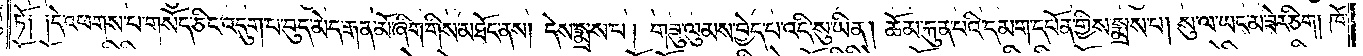ཏོ༑ ༑དེ་འཕགས་པ་གསོད་ཅིང་འདུག་པ་བུད་མེད་རྒན་མོ་ཞིག་གིས་མཐོང་ནས། དེས་སྨྲས་པ། གཟུ་ལུམས་བྱེད་པ་འདི་སུ་ཡིན། ཆོམ་རྐུན་པའི་དམག་དཔོན་གྱིས་སྨྲས་པ། སུ་ལ་ཡང་མ་ཟེར་ཅིག། ཁོ་
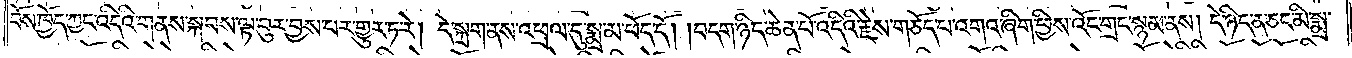བོས་ཁྱོད་ཀྱང་འདིའི་གནས་སྐབས་ལྟ་བུར་བྱས་པར་གྱུར་ཏ་རེ། དེ་སྐྲག་ནས་འཕྲལ་དུ་སྨྲ་མ་ཕོད་དོ། །བདག་ཉིད་ཆེན་པོ་འདིའི་རྗེས་གཅོད་པ་འགའ་ཞིག་ཕྱིས་འོང་གྲང་སྙམ་ནས། དེ་ཉིད་ན་ཅང་མི་སྨྲ་
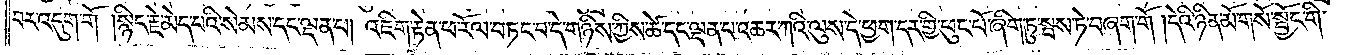བར་འདུག་གོ །སྙིང་རྗེ་མེད་པའི་སེམས་དང་ལྡན་པ། འཇིག་རྟེན་ཕ་རོལ་བཏང་བ་དེ་གཉིས་ཀྱིས་ཚེ་དང་ལྡན་པ་འཆར་ཀའི་ལུས་དེ་ཕྱག་དར་གྱི་ཕུང་པོ་ཞིག་ཏུ་སྦས་ཏེ་བཞག་གོ །དེའི་ཉིན་མོ་གསོ་སྦྱོང་གི་
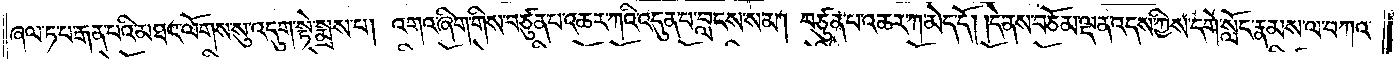ཞལ་ཏ་བ་རྒན་པའི་མཐའ་ལོགས་སུ་འདུག་སྟེ་སྨྲས་པ། འགའ་ཞིག་གིས་བཙུན་པ་འཆར་ཀའི་འདུན་པ་བླངས་སམ། བཙུན་པ་འཆར་ཀ་མེད་དོ། །དེ་ནས་བཅོམ་ལྡན་འདས་ཀྱིས་དགེ་སློང་རྣམས་ལ་བཀའ་
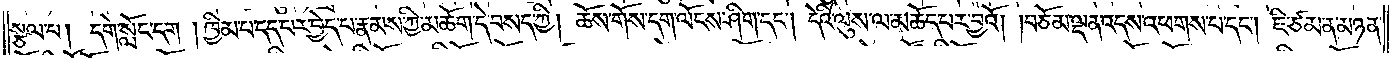སྩལ་པ། དགེ་སློང་དག །ཁྱིམ་པ་དད་པར་བྱེད་པ་རྣམས་ཀྱི་མཆོག་དེ་བསད་ཀྱི། ཆོས་གོས་དག་ལོངས་ཤིག་དང༌། དེའི་ལུས་ལ་མཆོད་པར་བྱའོ། །བཅོམ་ལྡན་འདས་འཕགས་པ་དང༌། ཇི་ཙམ་ན་མཉན་
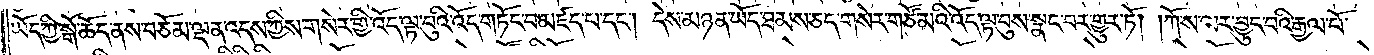ཡོད་ཀྱི་སྒོ་ཆོད་ནས་བཅོམ་ལྡན་འདས་ཀྱིས་གསེར་གྱི་འོད་ལྟ་བུའི་འོད་གཏོང་བ་མཛད་པ་དང༌། དེས་མཉན་ཡོད་ཐམས་ཅད་གསེར་གཙོ་མའི་འོད་ལྟ་བུས་སྣང་བར་གྱུར་ཏོ། །ཀོ་ས་ལར་བྱུང་བའི་རྒྱལ་པོ་
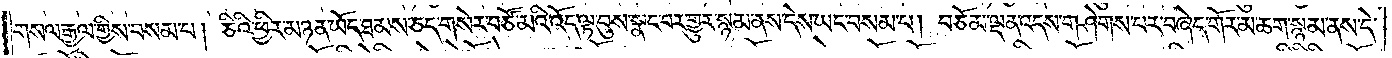གསལ་རྒྱལ་གྱིས་བསམ་པ། ཅིའི་ཕྱིར་མཉན་ཡོད་ཐམས་ཅད་གསེར་བཙོ་མའི་འོད་ལྟ་བུས་སྣང་བར་གྱུར་སྙམ་ནས་དེས་ཡང་བསམ་པ། བཅོམ་ལྡན་འདས་གཤེགས་པར་བཞེད་གོར་མ་ཆག་སྙམ་ནས་དེ་
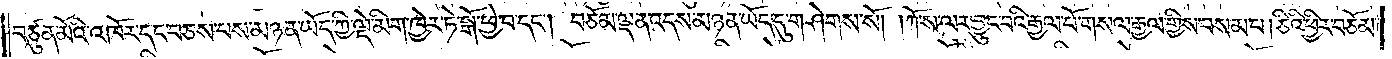བཙུན་མོའི་འཁོར་དང་བཅས་པས་མཉན་ཡོད་ཀྱི་ལྡེ་མིག་ཁྱེར་ཏེ་སྒོ་ཕྱེ་བ་དང༌། བཅོམ་ལྡན་འདས་མཉན་ཡོད་དུ་གཤེགས་སོ། །ཀོ་ས་ལར་བྱུང་བའི་རྒྱལ་པོ་གསལ་རྒྱལ་གྱིས་བསམ་པ། ཅིའི་ཕྱིར་བཅོམ་
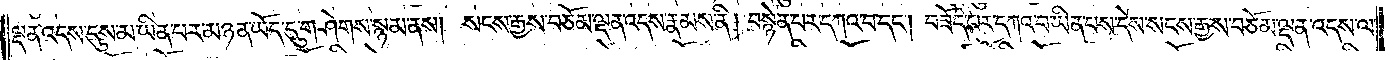ལྡན་འདས་དུས་མ་ཡིན་པར་མཉན་ཡོད་དུ་གཤེགས་སྙམ་ནས། སངས་རྒྱས་བཅོམ་ལྡན་འདས་རྣམས་ནི། བསྙེན་པར་དཀའ་བ་དང༌། བཟོད་པར་དཀའ་བ་ཡིན་པས་དེས་སངས་རྒྱས་བཅོམ་ལྡན་འདས་ལ་
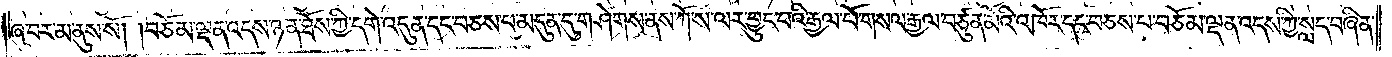ཞུ་བར་མ་ནུས་སོ། །བཅོམ་ལྡན་འདས་ཉན་ཐོས་ཀྱི་དགེ་འདུན་དང་བཅས་པ་མདུན་དུ་གཤེགས་ནས་ཀོ་ས་ལར་བྱུང་བའི་རྒྱལ་པོ་གསལ་རྒྱལ་བཙུན་མོའི་འཁོར་དང་བཅས་པ་བཅོམ་ལྡན་འདས་ཀྱི་སླད་བཞིན་
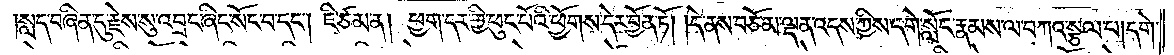སླད་བཞིན་དུ་རྗེས་སུ་འབྲང་ཞིང་སོང་བ་དང༌། ཇི་ཙམ་ན། ཕྱག་དར་གྱི་ཕུང་པོའི་ཕྱོགས་དེར་བྱོན་ཏོ། །དེ་ནས་བཅོམ་ལྡན་འདས་ཀྱིས་དགེ་སློང་རྣམས་ལ་བཀའ་སྩལ་པ། དགེ་
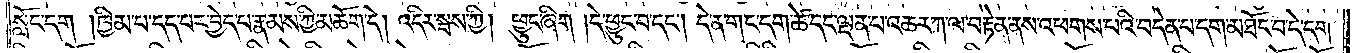སློང་དག །ཁྱིམ་པ་དད་པར་བྱེད་པ་རྣམས་ཀྱི་མཆོག་དེ། འདིར་སྦས་ཀྱི། ཕྱུང་ཞིག །དེ་ཕྱུང་བ་དང༌། དེ་ན་གང་དག་ཚེ་དང་ལྡན་པ་འཆར་ཀ་ལ་བརྟེན་ནས་འཕགས་པའི་བདེན་པ་དག་མཐོང་བ་དེ་དག་
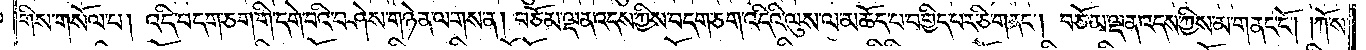གིས་གསོལ་པ། འདི་བདག་ཅག་གི་དགེ་བའི་བཤེས་གཉེན་ལགས་ན། བཅོམ་ལྡན་འདས་ཀྱིས་བདག་ཅག་འདིའི་ལུས་ལ་མཆོད་པ་བགྱིད་པར་ཅི་གནང༌། བཅོམ་ལྡན་འདས་ཀྱིས་མ་གནང་ངོ༌། །ཀོ་ས་
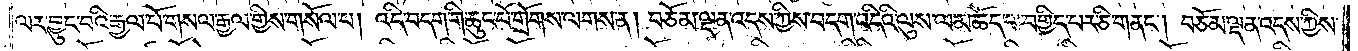ལར་བྱུང་བའི་རྒྱལ་པོ་གསལ་རྒྱལ་གྱིས་གསོལ་པ། འདི་བདག་གི་ཆུང་པོ་གྲོགས་ལགས་ན། བཅོམ་ལྡན་འདས་ཀྱིས་བདག་འདིའི་ལུས་ལ་མཆོད་པ་བགྱིད་པར་ཅི་གནང༌། བཅོམ་ལྡན་འདས་ཀྱིས་
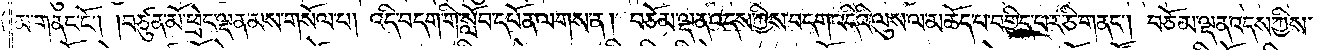མ་གནང་ངོ༌། །བཙུན་མོ་ཕྲེང་ལྡན་མས་གསོལ་པ། འདི་བདག་གི་སློབ་དཔོན་ལགས་ན། བཅོམ་ལྡན་འདས་ཀྱིས་བདག་འདིའི་ལུས་ལ་མཆོད་པ་བགྱིད་པར་ཅི་གནང༌། བཅོམ་ལྡན་འདས་ཀྱིས་
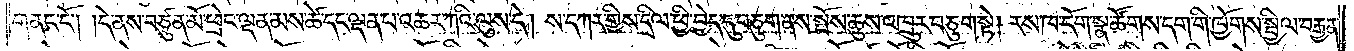གནང་ངོ༌། །དེ་ནས་བཙུན་མོ་ཕྲེང་ལྡན་མས་ཚེ་དང་ལྡན་པ་འཆར་ཀའི་ལུས་དེ། ས་དཀར་གྱིས་དྲིལ་ཕྱི་བྱེད་དུ་བཅུག་ནས་སྤོས་ཆུས་འཁྲུར་བཅུག་སྟེ། རས་ཁ་དོག་སྣ་ཚོགས་དག་གི་ཁྱོགས་སྤྱིལ་བརྒྱན་
